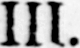III.
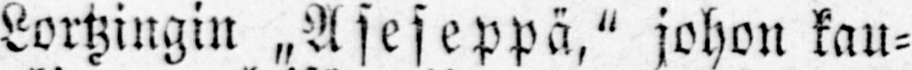Lortzingin „Aseseppä," johon kau-
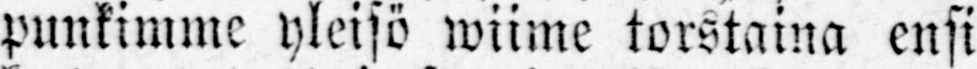punkimme yleisö wiime torstaina ensi
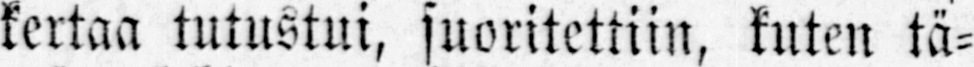kertaa tutustui, suoritettiin, kuten tä-
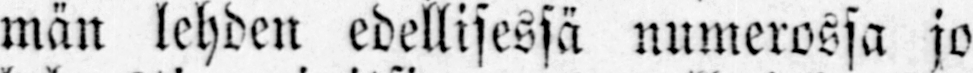män lehden edellisessä numerossa jo
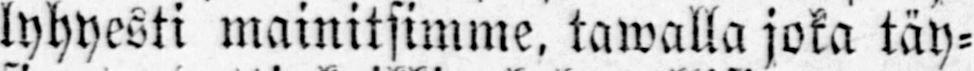lyhyesti mainitsimme, tawalla joka täy-
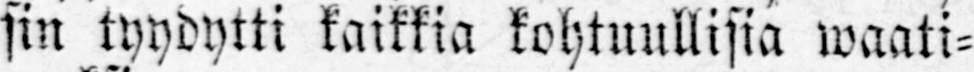sin tyydytti kaikkia kohtuullisia waati-
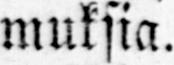muksia.
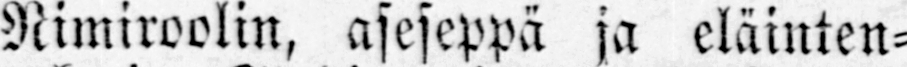Nimiroolin, aseseppä ja eläinten-
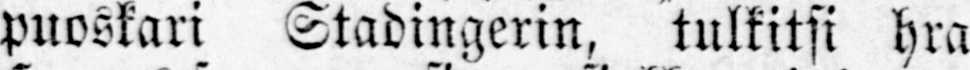puoskari Stadingerin, tulkitsi hra
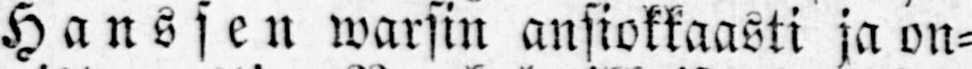Hanssen warsin ansiokkaasti ja on-
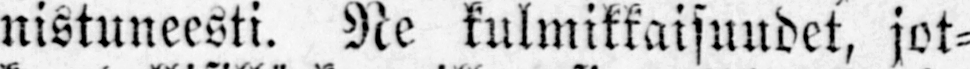nistuneesti. Ne kulmikkaisuudet, jot-
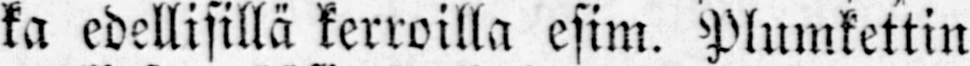ka edellisillä kerroilla esim. Plumkettin
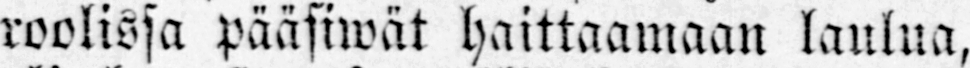roolissa pääsiwät haittaamaan laulua,
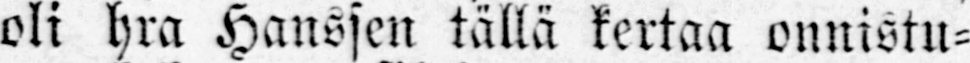oli hra Hanssen tällä kertaa onnistu-
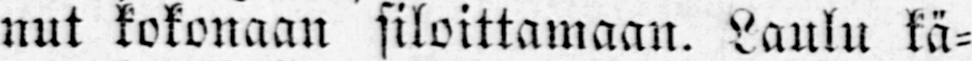nut kokonaan siloittamaan, Laulu kä-
